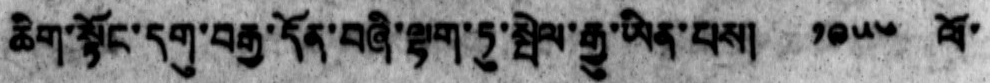ཆིག་སྟོང་དགུ་བརྒྱ་དོན་བཞི་ལྷག་ཏུ་སྤེལ་རྒྱུ་ཡིན་པས། ༡༩༥༦ ལོ་
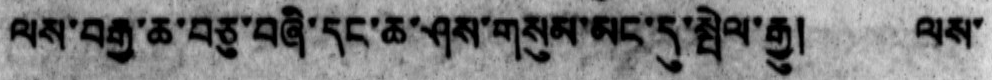ལས་བརྒྱ་ཆ་བཅུ་བཞི་དང་ཆ་ཤས་གསུམ་མང་དུ་སྤེལ་རྒྱུ། ལས་
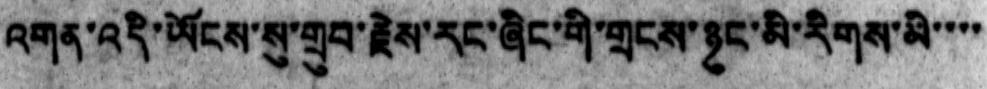འགན་འདི་ཡོངས་སུ་གྲུབ་རྗེས་རང་ཞིང་གི་གྲངས་ཉུང་མི་རིགས་མི་་་་
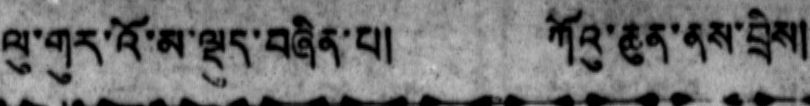ལུ་གུར་འོ་མ་ལྡུད་བཞིན་པ།  ཀོའུ་ཆུན་ནས་བྲིས།
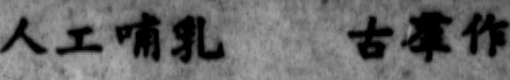人工哺乳 古羣作
